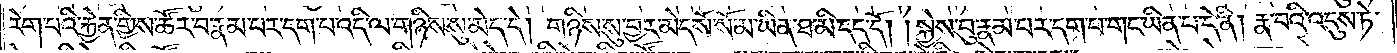རེག་པའི་རྐྱེན་གྱིས་ཚོར་བ་རྣམ་པར་དག་པ་འདི་ལ་གཉིས་སུ་མེད་དེ། གཉིས་སུ་བྱར་མེད་སོ་སོ་མ་ཡིན་ཐ་མི་དད་དོ། །སྐྱེས་བུ་རྣམ་པར་དག་པ་གང་ཡིན་པ་དེ་ནི། རྣ་བའི་འདུས་ཏེ་
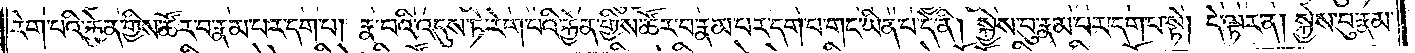རེག་པའི་རྐྱེན་གྱིས་ཚོར་བ་རྣམ་པར་དག་པ། རྣ་བའི་འདུས་ཏེ་རེག་པའི་རྐྱེན་གྱིས་ཚོར་བ་རྣམ་པར་དག་པ་གང་ཡིན་པ་དེ་ནི། སྐྱེས་བུ་རྣམ་པར་དག་པ་སྟེ། དེ་ལྟར་ན། སྐྱེས་བུ་རྣམ་
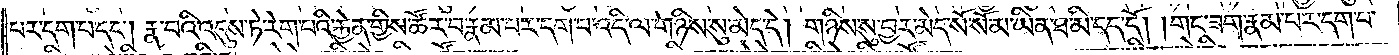པར་དག་པ་དང༌། རྣ་བའི་འདུས་ཏེ་རེག་པའི་རྐྱེན་གྱིས་ཚོར་བ་རྣམ་པར་དག་པ་འདི་ལ་གཉིས་སུ་མེད་དེ། གཉིས་སུ་བྱར་མེད་སོ་སོ་མ་ཡིན་ཐ་མི་དད་དོ། །གང་ཟག་རྣམ་པར་དག་པ་
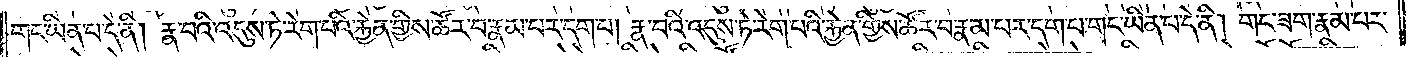གང་ཡིན་པ་དེ་ནི། རྣ་བའི་འདུས་ཏེ་རེག་པའི་རྐྱེན་གྱིས་ཚོར་བ་རྣམ་པར་དག་པ། རྣ་བའི་འདུས་ཏེ་རེག་པའི་རྐྱེན་གྱིས་ཚོར་བ་རྣམ་པར་དག་པ་གང་ཡིན་པ་དེ་ནི། གང་ཟག་རྣམ་པར་
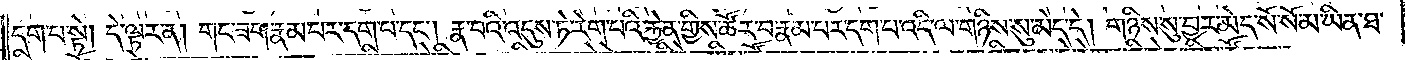དག་པ་སྟེ། དེ་ལྟར་ན། གང་ཟག་རྣམ་པར་དག་པ་དང༌། རྣ་བའི་འདུས་ཏེ་རེག་པའི་རྐྱེན་གྱིས་ཚོར་བ་རྣམ་པར་དག་པ་འདི་ལ་གཉིས་སུ་མེད་དེ། གཉིས་སུ་བྱར་མེད་སོ་སོ་མ་ཡིན་ཐ་
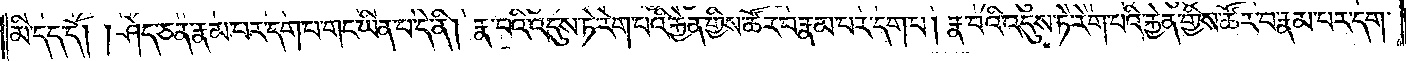མི་དད་དོ། །ཤེད་ཅན་རྣམ་པར་དག་པ་གང་ཡིན་པ་དེ་ནི། རྣ་བའི་འདུས་ཏེ་རེག་པའི་རྐྱེན་གྱིས་ཚོར་བ་རྣམ་པར་དག་པ། རྣ་བའི་འདུས་ཏེ་རེག་པའི་རྐྱེན་གྱིས་ཚོར་བ་རྣམ་པར་དག་
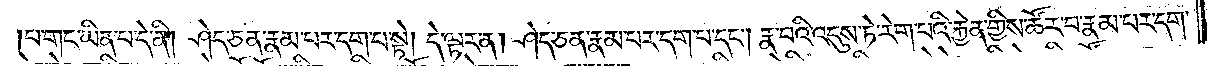པ་གང་ཡིན་པ་དེ་ནི། ཤེད་ཅན་རྣམ་པར་དག་པ་སྟེ། དེ་ལྟར་ན། ཤེད་ཅན་རྣམ་པར་དག་པ་དང༌། རྣ་བའི་འདུས་ཏེ་རེག་པའི་རྐྱེན་གྱིས་ཚོར་བ་རྣམ་པར་དག་
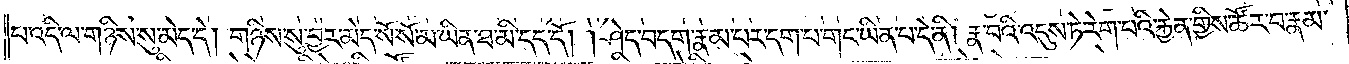པ་འདི་ལ་གཉིས་སུ་མེད་དེ། གཉིས་སུ་བྱར་མེད་སོ་སོ་མ་ཡིན་ཐ་མི་དད་དོ། །ཤེད་བདག་རྣམ་པར་དག་པ་གང་ཡིན་པ་དེ་ནི། རྣ་བའི་འདུས་ཏེ་རེག་པའི་རྐྱེན་གྱིས་ཚོར་བ་རྣམ་
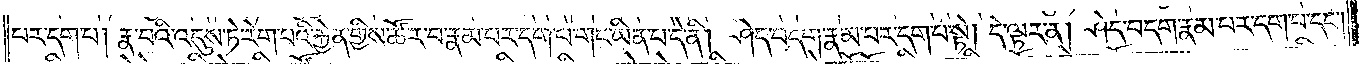པར་དག་པ། རྣ་བའི་འདུས་ཏེ་རེག་པའི་རྐྱེན་གྱིས་ཚོར་བ་རྣམ་པར་དག་པ་གང་ཡིན་པ་དེ་ནི། ཤེད་བདག་རྣམ་པར་དག་པ་སྟེ། དེ་ལྟར་ན། ཤེད་བདག་རྣམ་པར་དག་པ་དང༌།
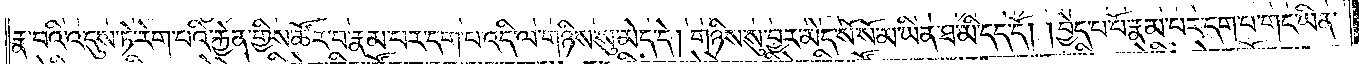རྣ་བའི་འདུས་ཏེ་རེག་པའི་རྐྱེན་གྱིས་ཚོར་བ་རྣམ་པར་དག་པ་འདི་ལ་གཉིས་སུ་མེད་དེ། གཉིས་སུ་བྱར་མེད་སོ་སོ་མ་ཡིན་ཐ་མི་དད་དོ། །བྱེད་པ་པོ་རྣམ་པར་དག་པ་གང་ཡིན་
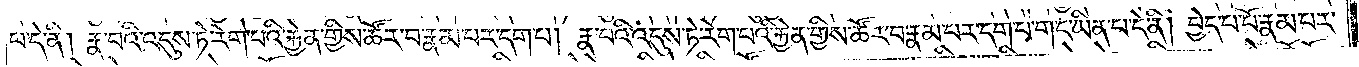པ་དེ་ནི། རྣ་བའི་འདུས་ཏེ་རེག་པའི་རྐྱེན་གྱིས་ཚོར་བ་རྣམ་པར་དག་པ། རྣ་བའི་འདུས་ཏེ་རེག་པའི་རྐྱེན་གྱིས་ཚོར་བ་རྣམ་པར་དག་པ་གང་ཡིན་པ་དེ་ནི། བྱེད་པ་པོ་རྣམ་པར་
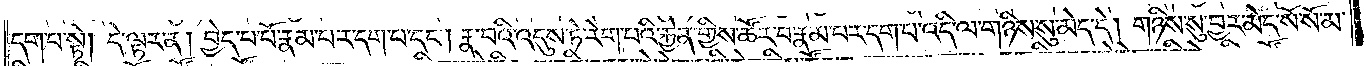དག་པ་སྟེ། དེ་ལྟར་ན། བྱེད་པ་པོ་རྣམ་པར་དག་པ་དང༌། རྣ་བའི་འདུས་ཏེ་རེག་པའི་རྐྱེན་གྱིས་ཚོར་བ་རྣམ་པར་དག་པ་འདི་ལ་གཉིས་སུ་མེད་དེ། གཉིས་སུ་བྱར་མེད་སོ་སོ་མ་
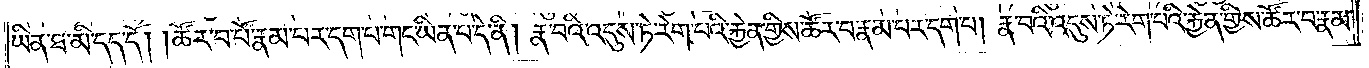ཡིན་ཐ་མི་དད་དོ། །ཚོར་བ་པོ་རྣམ་པར་དག་པ་གང་ཡིན་པ་དེ་ནི། རྣ་བའི་འདུས་ཏེ་རེག་པའི་རྐྱེན་གྱིས་ཚོར་བ་རྣམ་པར་དག་པ། རྣ་བའི་འདུས་ཏེ་རེག་པའི་རྐྱེན་གྱིས་ཚོར་བ་རྣམ་
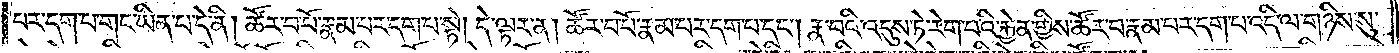པར་དག་པ་གང་ཡིན་པ་དེ་ནི། ཚོར་བ་པོ་རྣམ་པར་དག་པ་སྟེ། དེ་ལྟར་ན། ཚོར་བ་པོ་རྣམ་པར་དག་པ་དང༌། རྣ་བའི་འདུས་ཏེ་རེག་པའི་རྐྱེན་གྱིས་ཚོར་བ་རྣམ་པར་དག་པ་འདི་ལ་གཉིས་སུ་
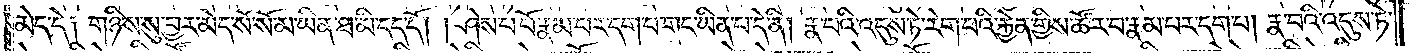མེད་དེ༑ གཉིས་སུ་བྱར་མེད་སོ་སོ་མ་ཡིན་ཐ་མི་དད་དོ། །ཤེས་པ་པོ་རྣམ་པར་དག་པ་གང་ཡིན་པ་དེ་ནི། རྣ་བའི་འདུས་ཏེ་རེག་པའི་རྐྱེན་གྱིས་ཚོར་བ་རྣམ་པར་དག་པ། རྣ་བའི་འདུས་ཏེ་
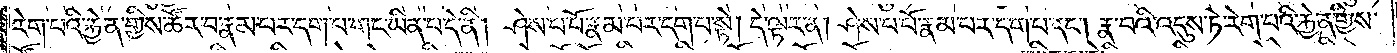རེག་པའི་རྐྱེན་གྱིས་ཚོར་བ་རྣམ་པར་དག་པ་གང་ཡིན་པ་དེ་ནི། ཤེས་པ་པོ་རྣམ་པར་དག་པ་སྟེ། དེ་ལྟར་ན། ཤེས་པ་པོ་རྣམ་པར་དག་པ་དང༌། རྣ་བའི་འདུས་ཏེ་རེག་པའི་རྐྱེན་གྱིས་
